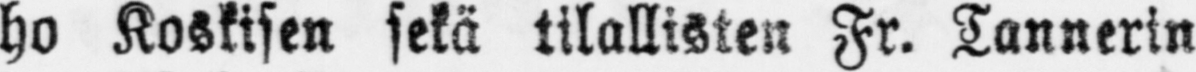ho Koskisen sekä tilallisten Fr. Tannerin
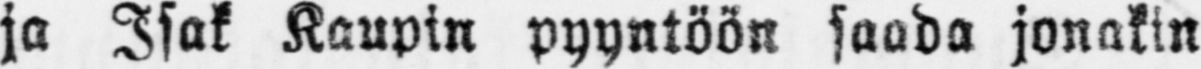ja Isak Kaupin pyyntöön saada jonakin
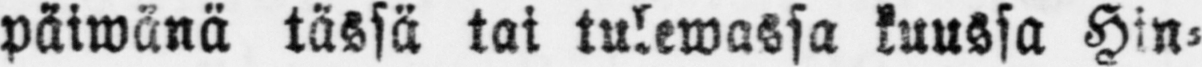päiwänä tässä tai tulewassa kuussa Hi-
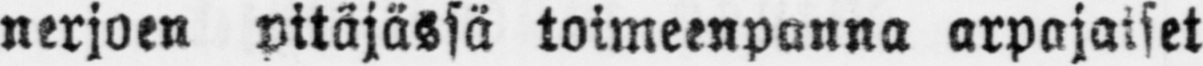nerjoen pitäjässä toimeenpanna arpajaiset
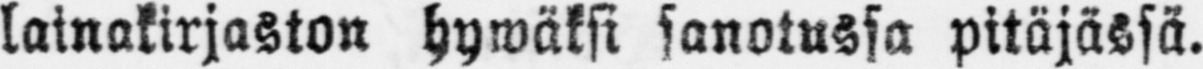lainakirjaston hywäksi sanotussa pitäjässä.
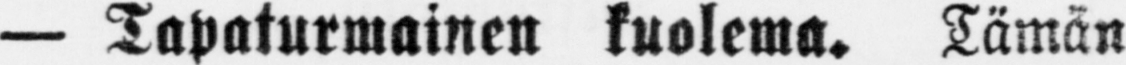— Tapaturmainen kuolema. Tämän
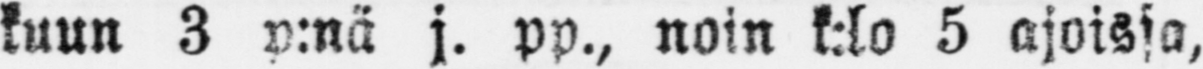kuun 3 p:nä j. pp., noin k:lo 5 ajoissa,
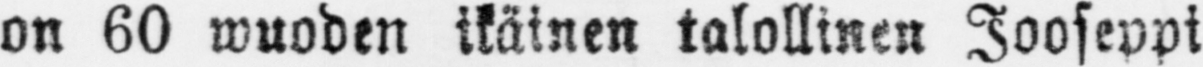on 60 wuoden ikäinen talollinen Jooseppi
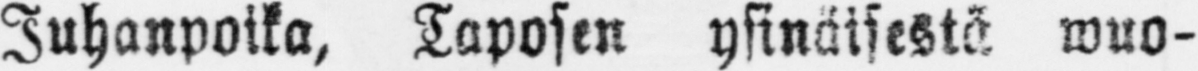Juhanpoika, Taposen ysinäisestä wuo-
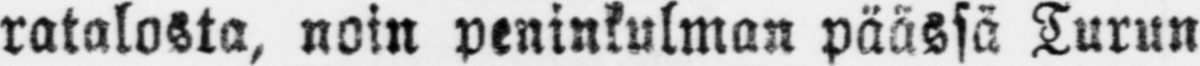ratalosta, noin peninkulman päässä Turun
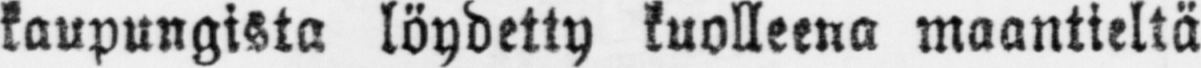kaupungista löydetty kuolleena maantieltä
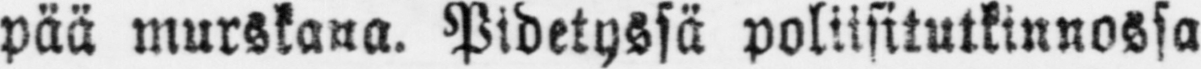pää murskana. Pidetyssä poliisitutkinnossa
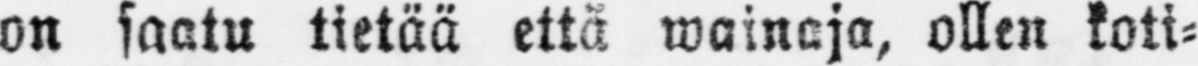on saatu tietää että wainaja, ollen koti-
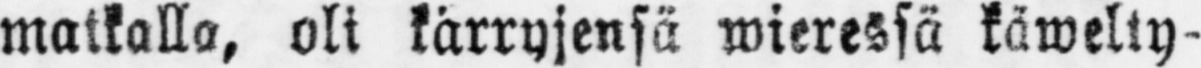matkalla, oli kärryjensä wieressä käwelty-
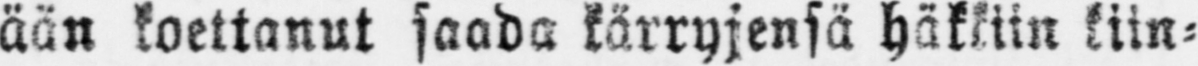ään koettanut saada kärryjensä häkkiin kiin-
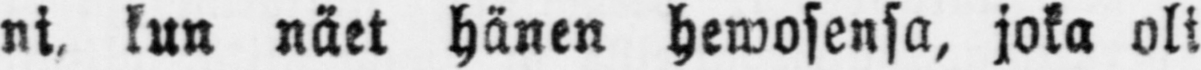ni kun näet hänen hewosensa, joka oli
